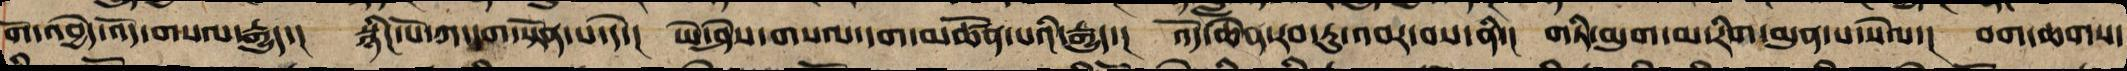གོ་འབྱེད་འོད་གསལ་རྒྱུད་། སྙིང་པོ་ཀ་དག་སྟོན་པ་སྟེ་། ཡེ་ཤེས་གསལ་དག་མཚོན་པའི་རྒྱུད་། འོད་ཆེན་རབ་ཏུ་འབར་བས་ནི་། གཏི་མུག་མ་རིག་མུན་པ་སེལ་། བག་ཆགས་
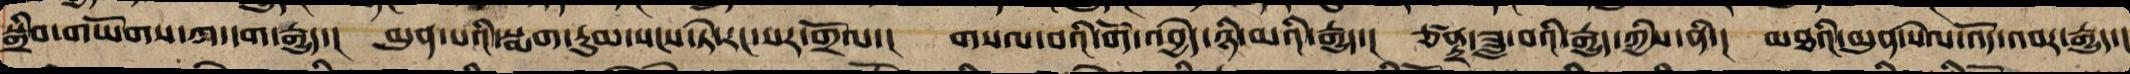སྒྲིབ་གཡོགས་ཀ་དག་རྒྱུད་། མུན་པའི་སྨག་རུམ་སངས་ཏེ་རང་སར་གྲོལ་། གསལ་བའི་གོ་འབྱེད་ཉི་མའི་རྒྱུད་། ཙནྡྲ་ཟླ་བའི་རྒྱུད་ཀྱིས་ནི་། མཐའི་མུན་སེལ་འོད་འབར་རྒྱུད་།
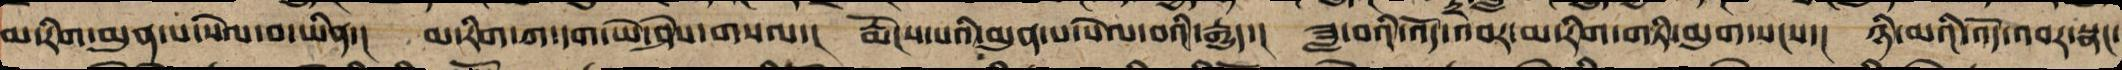མ་རིག་མུན་པ་སེལ་བ་ཡིན་། མ་རིག་ཀ་དག་ཡེ་ཤེས་གསལ་། རྨོངས་པའི་མུན་པ་སེལ་བའི་རྒྱུད་། ཟླ་བའི་འོད་འབར་མ་རིག་གཏི་མུག་སངས་། ཉི་མའི་འོད་འབར་སྣང་
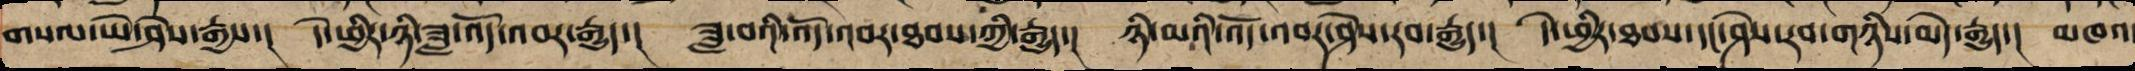གསལ་ཡེ་ཤེས་རྒྱས་། དེ་ཕྱིར་ཉི་ཟླ་འོད་འབར་རྒྱུད་། ཟླ་བའི་འོད་འབར་ཐབས་ཀྱི་རྒྱུད་། ཉི་མའི་འོད་འབར་ཤེས་རབ་རྒྱུད་། དེ་ཕྱིར་ཐབས་དང་ཤེས་རབ་གཉིས་མེད་རྒྱུད་། མཁའ་
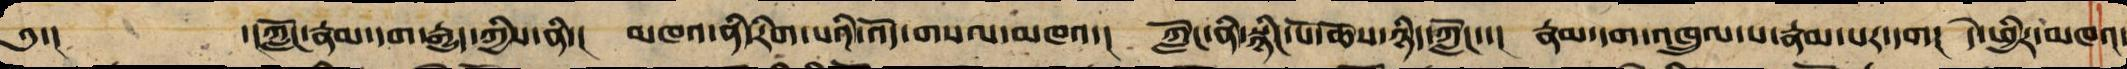༄༅་། ཀློང་རྣམ་དག་རྒྱུད་ཀྱིས་ནི་། མཁའ་ནི་རིག་པའི་འོད་གསལ་མཁའ་། ཀློང་ནི་སྙིང་པོ་ཆོས་ཉིད་ཀློང་་། རྣམ་དག་འཁྲུལ་པ་རྣམ་པར་དག། དེ་ཕྱིར་མཁའ་
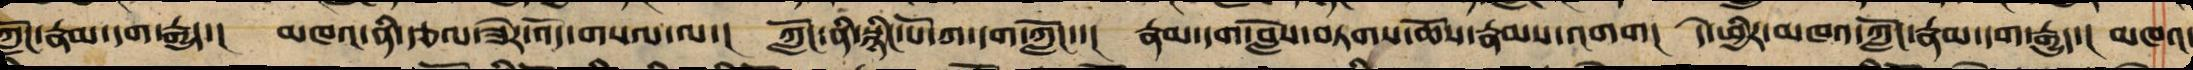ཀློང་རྣམ་དག་རྒྱུད་། མཁའ་ནི་རྩལ་ཟེར་འོད་གསལ་ལ་། ཀློང་ནི་སྙིང་པོ་ཀ་དག་ཀློང་་། རྣམ་དག་བློས་བཏགས་ཆོས་རྣམས་འགག། དེ་ཕྱིར་མཁའ་ཀློང་རྣམ་དག་རྒྱུད་། མཁའ་
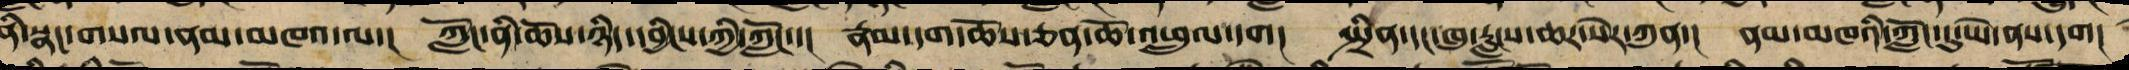ནི་སྣང་གསལ་ནམ་མཁའ་ལ་། ཀློང་ནི་ཆོས་ཉིད་དབྱིངས་ཀྱི་ཀློང་་། རྣམ་དག་ཆོས་ཅན་ཆོ་འཕྲུལ་དག། སྤྲིན་དང་ཁུ་རླངས་ཆར་སེར་ཀུན་། ནམ་མཁའི་ཀློང་དུ་ཡེ་ནས་དག།
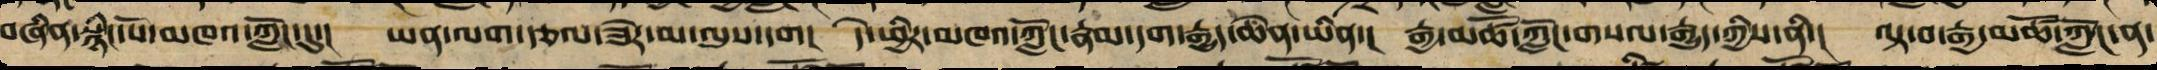བཞིན་སྙིང་པོ་མཁའ་ཀློང་དུ་། ཡན་ལག་རྩལ་ཟེར་མ་ལུས་དག། དེ་ཕྱིར་མཁའ་ཀློང་རྣམ་དག་རྒྱུད་ཆེན་ཡིན་། རྒྱ་མཚོ་ཀློང་གསལ་རྒྱུད་ཀྱིས་ནི་། བལྟ་བ་རྒྱ་མཚོ་ཀློང་ན་
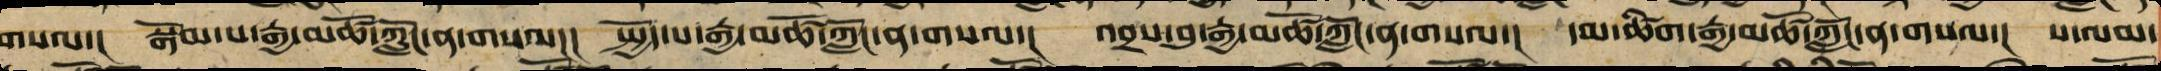གསལ་། སྒོམ་པ་རྒྱ་མཚོ་ཀློང་ན་གསལ་། སྤྱོད་པ་རྒྱ་མཚོ་ཀློང་ན་གསལ་། འབྲས་བུ་རྒྱ་མཚོ་ཀློང་ན་གསལ་། དམ་ཚིག་རྒྱ་མཚོ་ཀློང་ན་གསལ་། ས་ལམ་
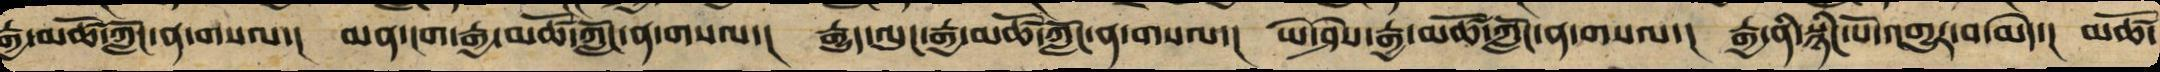རྒྱ་མཚོ་ཀློང་ན་གསལ་། མན་ངག་རྒྱ་མཚོ་ཀློང་ན་གསལ་། རྒྱུད་ལུང་རྒྱ་མཚོ་ཀློང་ན་གསལ་། ཡེ་ཤེས་རྒྱ་མཚོ་ཀློང་ན་གསལ་། རྒྱ་ནི་སྙིང་པོ་འགྱུར་བ་མེད་། མཚོ་
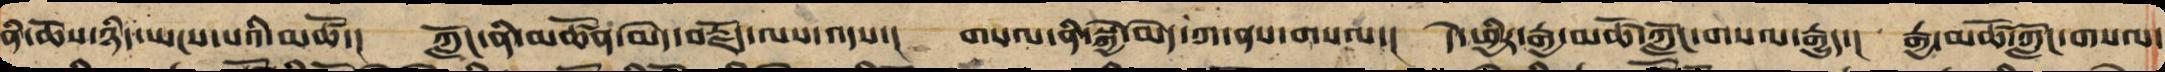ནི་ཆོས་ཉིད་ཡངས་པའི་མཚོ་། ཀློང་ནི་མཚོན་མེད་བརྗོད་ལས་འདས་། གསལ་ནི་སྐྱེ་མེད་ཀ་ནས་གསལ་། དེ་ཕྱིར་རྒྱ་མཚོ་ཀློང་གསལ་རྒྱུད་། རྒྱ་མཚོ་ཀློང་གསལ་
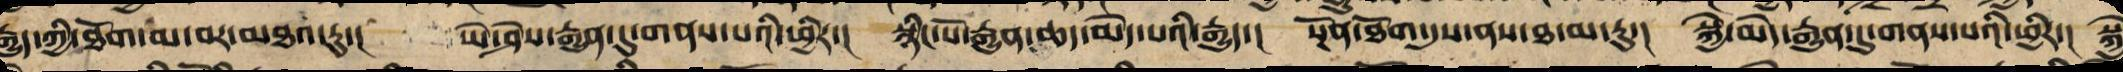རྒྱུད་ཀྱི་ཐོག་མ་བར་མཐའ་རུ་། ཡེ་ཤེས་རྒྱུན་དུ་གནས་པའི་ཕྱིར་། སྙིང་པོ་རྒྱུན་ཆད་མེད་པའི་རྒྱུད་། སྔོན་ཐོག་དུས་ནས་ཐ་མ་རུ་། སྐྱེ་མེད་རྒྱུན་དུ་གནས་པའི་ཕྱིར་། སྐྱེ
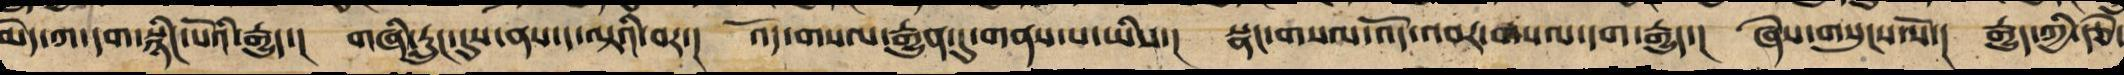མེད་ཀ་དག་སྙིང་པོའི་རྒྱུད་། གཞི་རླུང་དུས་ནས་ད་ལྟའི་བར་། འོད་གསལ་རྒྱུན་དུ་གནས་པ་ཡིས་། སྣང་གསལ་འོད་འབར་གསལ་དག་རྒྱུད་། ཅེས་གསུངས་སོ་། རྒྱུད་ཀྱི་རྩེ་
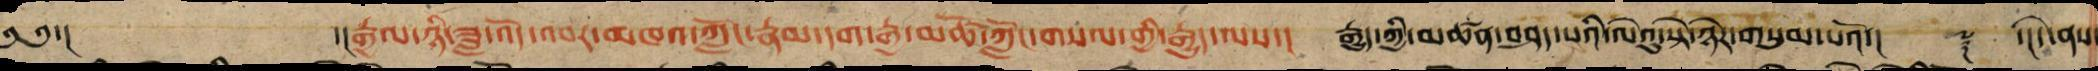༄༅་། ་།རྒྱལ་ཉི་ཟླ་འོད་འབར་མཁའ་ཀློང་རྣམ་དག་རྒྱ་མཚོ་ཀློང་གསལ་གྱི་རྒྱུད་ལས་། རྒྱུད་ཀྱི་མཚན་བཤད་བསྟན་པའི་ལེའུ་སྟེ་ཉེར་གསུམ་པའོ་།། ༈ ་།།དེ་ནས་
